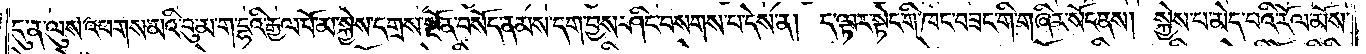དུ་ན་ལུས་འཕགས་མའི་བུ་མ་ག་དྷའི་རྒྱལ་པོ་མ་སྐྱེས་དགྲས་སྔོན་བསོད་ནམས་དག་བྱས་ཤིང་བསགས་པ་དེས་ན། ད་ལྟར་སྟེང་གི་ཁང་བཟང་གི་གཞིར་སོང་ནས། སྐྱེས་པ་མེད་པའི་རོལ་མོས་
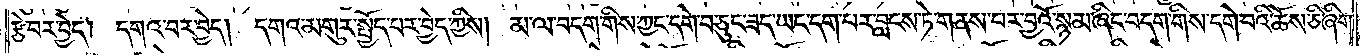རྩེ་བར་བྱེད། དགའ་བར་བྱེད། དགའ་མགུར་སྤྱོད་པར་བྱེད་ཀྱིས། མ་ལ་བདག་གིས་ཀྱང་དགེ་བ་ཅུང་ཟད་ཡང་དག་པར་བླངས་ཏེ་གནས་པར་བྱའོ་སྙམ་ཞིང་བདག་གིས་དགེ་བའི་ཆོས་ཅི་ཞིག་
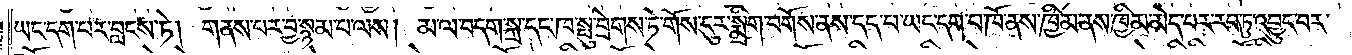ཡང་དག་པར་བླངས་ཏེ། གནས་པར་བྱ་སྙམ་པ་ལས། མ་ལ་བདག་སྐྲ་དང་ཁ་སྤུ་བྲེགས་ཏེ་གོས་ངུར་སྨྲིག་བགོས་ནས་དད་པ་ཡང་དག་པ་ཁོ་ནས་ཁྱིམ་ནས་ཁྱིམ་མེད་པར་རབ་ཏུ་འབྱུང་བར་
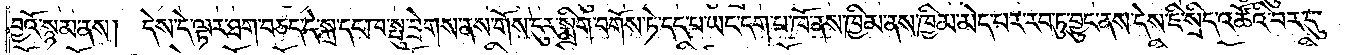བྱའོ་སྙམ་ནས། དེས་དེ་ལྟར་ཐག་བཅད་དེ་སྐྲ་དང་ཁ་སྤུ་བྲེགས་ནས་གོས་ངུར་སྨྲིག་བགོས་ཏེ་དད་པ་ཡང་དག་པ་ཁོ་ནས་ཁྱིམ་ནས་ཁྱིམ་མེད་པར་རབ་ཏུ་བྱུང་ནས་དེས་ཇི་སྲིད་འཚོའི་བར་དུ་
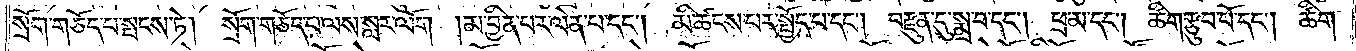སྲོག་གཅོད་པ་སྤངས་ཏེ། སྲོག་གཅོད་པ་ལས་སླར་ལོག །མ་བྱིན་པར་ལེན་པ་དང༌། མི་ཚངས་པར་སྤྱོད་པ་དང༌། བརྫུན་དུ་སྨྲ་བ་དང༌། ཕྲ་མ་དང༌། ཚིག་རྩུབ་པོ་དང༌། ཚིག་
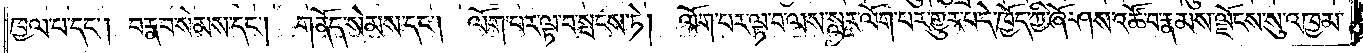ཁྱལ་པ་དང༌། བརྣབ་སེམས་དང༌། གནོད་སེམས་དང༌། ལོག་པར་ལྟ་བ་སྤངས་ཏེ། ལོག་པར་བལྟ་བ་ལས་སླར་ལོག་པར་གྱུར་བ་དེ་ཁྱོད་ཀྱི་ཞོ་ཤས་འཚོ་བ་རྣམས་ལྗོངས་སུ་འཁྱམ་
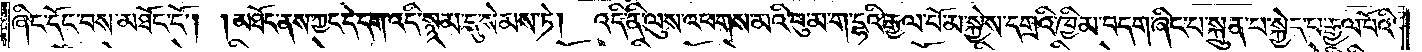ཞིང་དོང་བས་མཐོང་ངོ༌། །མཐོང་ནས་ཀྱང་དེ་དག་འདི་སྙམ་དུ་སེམས་ཏེ།   འདི་ནི་ལུས་འཕགས་མའི་བུ་མ་ག་དྷའི་རྒྱལ་པོ་མ་སྐྱེས་དགྲའི་ཁྱིམ་བདག་ཞིང་པ་སྐྲུན་པ་སྐྱེད་པ་རྒྱལ་པོའི་
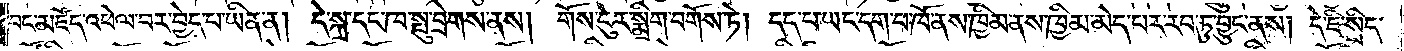བང་མཛོད་འཕེལ་བར་བྱེད་པ་ཡིན་ན། དེ་སྐྲ་དང་ཁ་སྤུ་བྲེགས་ནས། གོས་ངུར་སྨྲིག་བགོས་ཏེ། དད་པ་ཡང་དག་པ་ཁོ་ནས་ཁྱིམ་ནས་ཁྱིམ་མེད་པར་རབ་ཏུ་བྱུང་ནས། དེ་ཇི་སྲིད་
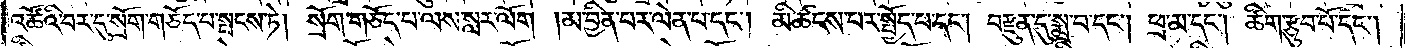འཚོའི་བར་དུ་སྲོག་གཅོད་པ་སྤངས་ཏེ། སྲོག་གཅོད་པ་ལས་སླར་ལོག །མ་བྱིན་པར་ལེན་པ་དང༌། མི་ཚངས་པར་སྤྱོད་པ་དང༌། བརྫུན་དུ་སྨྲ་བ་དང༌། ཕྲ་མ་དང༌། ཚིག་རྩུབ་པོ་དང༌།
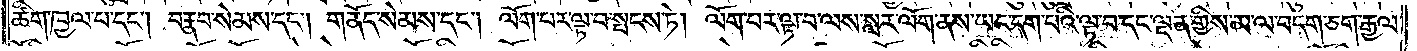ཚིག་ཁྱལ་པ་དང༌། བརྣབ་སེམས་དང༌། གནོད་སེམས་དང༌། ལོག་པར་ལྟ་བ་སྤངས་ཏེ། ལོག་པར་ལྟ་བ་ལས་སླར་ལོག་ནས་ཡང་དག་པའི་ལྟ་བ་དང་ལྡན་གྱིས་མ་ལ་བདག་ཅག་རྒྱལ་
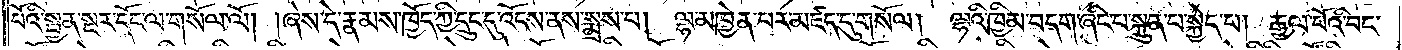པོའི་སྤྱན་སྔར་དོང་ལ་གསོལ་ལོ། །ཞེས་དེ་རྣམས་ཁྱོད་ཀྱི་དྲུང་དུ་འོངས་ནས་སྨྲས་པ། ལྷ་མཁྱེན་པར་མཛད་དུ་གསོལ། ལྷའི་ཁྱིམ་བདག་ཞིང་པ་སྐྲུན་པ་སྐྱེད་པ། རྒྱལ་པོའི་བང་
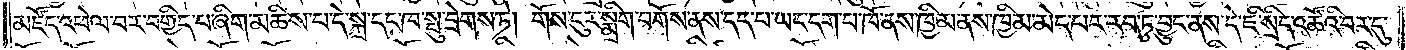མཛོད་འཕེལ་བར་བགྱིད་པ་ཞིག་མཆིས་པ་དེ་སྐྲ་དང་ཁ་སྤུ་བྲེགས་ཏེ། གོས་ངུར་སྨྲིག་བགོས་ནས་དད་པ་ཡང་དག་པ་ཁོ་ནས་ཁྱིམ་ནས་ཁྱིམ་མེད་པར་རབ་ཏུ་བྱུང་ནས་དེ་ཇི་སྲིད་འཚོའི་བར་དུ་
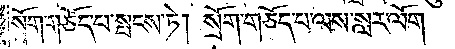སྲོག་གཅོད་པ་སྤངས་ཏེ། སྲོག་གཅོད་པ་ལས་སླར་ལོག  །མ་བྱིན་པར་ལེན་པ་དང༌། མི་ཚངས་པར་སྤྱོད་པ་དང༌། བརྫུན་དུ་སྨྲ་བ་དང༌།   ཕྲ་མ་དང༌། ཚིག་རྩུབ་པོ་དང༌། ཚིག་
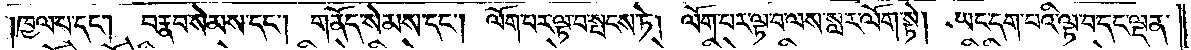།ཁྱལ་པ་དང༌། བརྣབ་སེམས་དང༌། གནོད་སེམས་དང༌། ལོག་པར་ལྟ་བ་སྤངས་ཏེ། ལོག་པར་ལྟ་བ་ལས་སླར་ལོག་སྟེ། ཡང་དག་པའི་ལྟ་བ་དང་ལྡན་
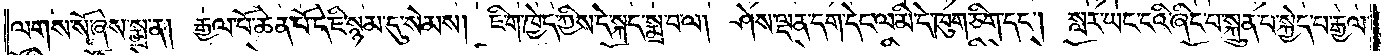ལགས་སོ་ཞེས་སྨྲ་ན། རྒྱལ་པོ་ཆེན་པོ་དེ་ཇི་སྙམ་དུ་སེམས། ཇི་ག་ཁྱེད་ཀྱིས་དེ་སྐད་སྨྲ་བ་ལ། ཤེས་ལྡན་དག་དེང་ལ་མི་དེ་ཁུག་ཅིག་དང༌། སླར་ཡང་ངའི་ཞིང་པ་སྐྲུན་པ་སྐྱེད་པ་རྒྱལ་
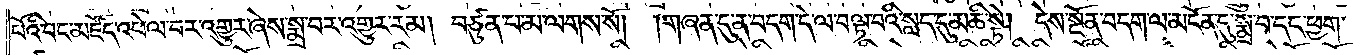པོའི་བང་མཛོད་འཕེལ་བར་འགྱུར་ཞེས་སྨྲ་བར་འགྱུར་རམ། བཙུན་པ་མ་ལགས་སོ། །གཞན་དུ་ན་བདག་དེ་ལ་བལྟ་བའི་སླད་དུ་མཆི་སྟེ། དེས་སྔོན་བདག་ལ་མངོན་དུ་སྨྲ་བ་དང་ཕྱག་
